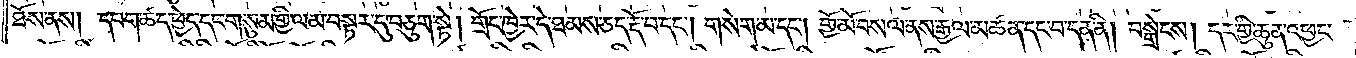ཐོས་ནས། དཔག་ཚད་ཕྱེད་དང་གསུམ་གྱི་ལམ་བསྟར་དུ་བཅུག་སྟེ། གྲོང་ཁྱེར་དེ་ཐམས་ཅད་རྡོ་བ་དང༌། གསེག་མ་དང༌། གྱོ་མོ་བསལ་ནས་རྒྱལ་མཚན་དང་བ་དན་ནི། བསྒྲེངས། དར་གྱི་ཆུན་འཕྱང་
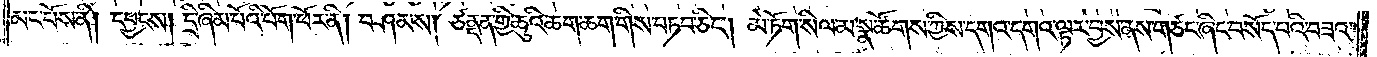མང་པོས་ནི། དཔྱངས། དྲི་ཞིམ་པོའི་པོག་ཕོར་ནི། བཤམས། ཙནྡན་གྱི་ཆུའི་ཆག་ཆག་གིས་བཏབ་ཅིང༌། མེ་ཏོག་སིལ་མ་སྣ་ཚོགས་ཀྱིས་དགའ་དགའ་ལྟར་བྱས་ནས་གཙང་ཞིང་བསོད་པའི་བཟའ་
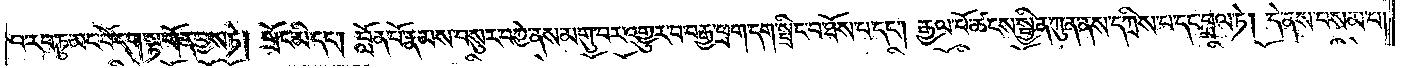བ་རབ་ཏུ་མང་པོ་དག་སྟ་གོན་བྱས་ཏེ། གྲོང་མི་དང༌། བློན་པོ་རྣམས་བསུར་བཀྱེ་ནས་མགུ་བར་འགྱུར་བ་བརྒྱ་ཕྲག་དག་སྤྲིང་བ་ཐོས་པ་དང༌། རྒྱལ་པོ་ཚངས་སྦྱིན་ཀུན་ནས་དཀྲིས་པ་དང་བྲལ་ཏེ། དེ་ནས་བསམ་པ།
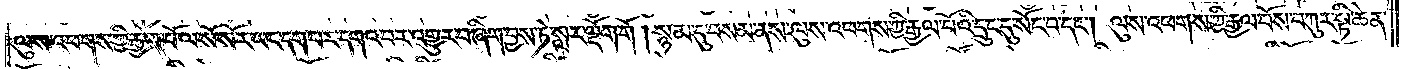ལུས་འཕགས་ཀྱི་རྒྱལ་པོ་ལ་སོ་སོར་ཡང་དག་པར་དགའ་བར་འགྱུར་བ་ཞིག་བྱས་ཏེ་སླར་ལྡོག་གོ །སྙམ་དུ་བསམ་ནས་ལུས་འཕགས་ཀྱི་རྒྱལ་པོའི་དྲུང་དུ་སོང་བ་དང༌། ལུས་འཕགས་ཀྱི་རྒྱལ་པོས་བཀུར་སྟི་ཆེན་
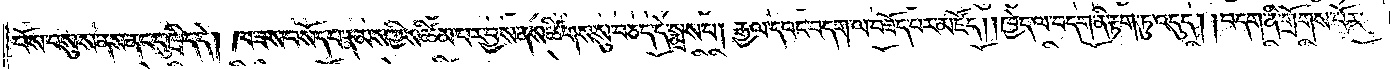པོས་བསུས་ནས་ནང་དུ་ཁྲིད་དེ། ཁ་ཟས་བསོད་པ་རྣམས་ཀྱིས་ཚིམ་པར་བྱས་ནས་ཚིགས་སུ་བཅད་དེ་སྨྲས་པ། རྒྱལ་དབང་བདག་ལ་བཟོད་པར་མཛོད། །ཁྱེད་ལ་བདག་ནི་རྟག་ཏུ་འདུད། །བདག་ནི་གྲོགས་པོར་
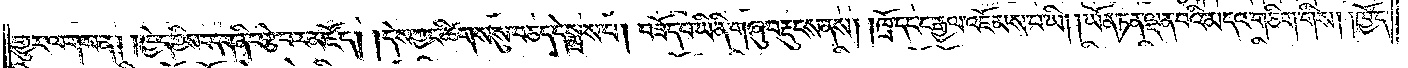གྱུར་ལགས་ན། །ཁྱེད་ཀྱིས་བདག་ནི་བརྩེ་བར་མཛོད། །དེས་ཀྱང་ཚིགས་སུ་བཅད་དེ་སྨྲས་པ། བཟོད་པ་ཡི་ནི་གཞུ་བརྡུངས་ནས། །ཁྲོ་དང་ང་རྒྱལ་འཇོམས་པ་ཡི། །ཡོན་ཏན་ལྡན་པའི་མདའ་གཅིག་གིས། །ཁྱོད་
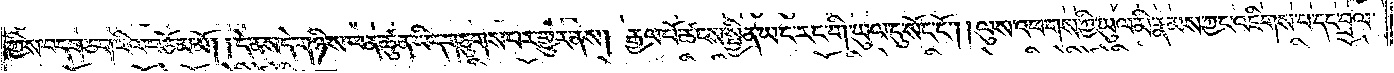ཀྱིས་བདག་ཅག་རིལ་བཅོམ་མོ། །དེ་ནས་དེ་གཉིས་ཕན་ཚུན་ཡིད་གཅུགས་པར་གྱུར་ནས། རྒྱལ་པོ་ཚངས་སྦྱིན་ཡང་རང་གི་ཡུལ་དུ་སོང་ངོ༌། །ལུས་འཕགས་ཀྱི་ཡུལ་མི་རྣམས་ཀྱང་འཇིགས་པ་དང་བྲལ་
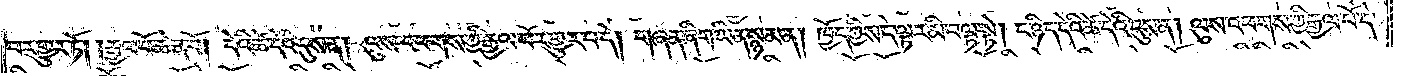བར་གྱུར་ཏོ། །རྒྱལ་པོ་ཆེན་པོ། དེའི་ཚེ་དེའི་དུས་ན། ལུས་འཕགས་ཀྱི་རྒྱལ་པོར་གྱུར་པ་དེ། གཞན་ཞིག་ཡིན་སྙམ་ན། ཁྱོད་ཀྱིས་དེ་ལྟར་མི་བལྟ་སྟེ། ང་ཉིད་དེའི་ཚེ་དེའི་དུས་ན། ལུས་འཕགས་ཀྱི་རྒྱལ་པོ་དེ་
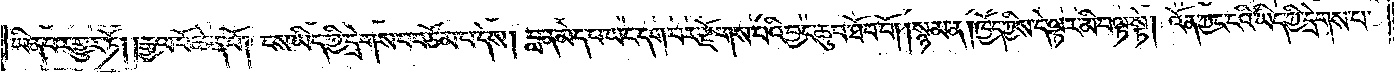ཡིན་པར་གྱུར་ཏོ། །རྒྱལ་པོ་ཆེན་པོ། ངས་ཡིད་ཀྱི་དྲེགས་པ་བཅོམ་པ་དེས། བླ་ན་མེད་པ་ཡང་དག་པར་རྫོགས་པའི་བྱང་ཆུབ་ཐོབ་བོ། །སྙམ་ན། ཁྱོད་ཀྱིས་དེ་ལྟར་མི་བལྟ་སྟེ། འོན་ཀྱང་ངའི་ཡིད་ཀྱི་དྲེགས་པ་
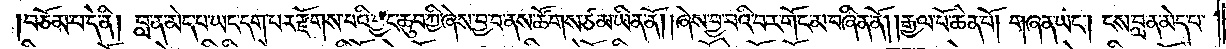བཅོམ་པ་དེ་ནི། བླ་ན་མེད་པ་ཡང་དག་པར་རྫོགས་པའི་བྱང་ཆུབ་ཀྱི་ཞེས་བྱ་བ་ནས་ཚོགས་ཙམ་ཡིན་ནོ། །ཞེས་བྱ་བའི་བར་གོང་མ་བཞིན་ནོ། །རྒྱལ་པོ་ཆེན་པོ། གཞན་ཡང༌། ངས་བླ་ན་མེད་པ་
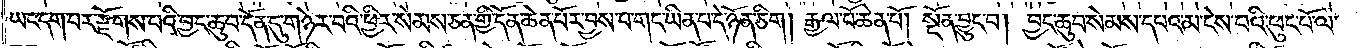ཡང་དག་པར་རྫོགས་པའི་བྱང་ཆུབ་དོན་དུ་གཉེར་བའི་ཕྱིར་སེམས་ཅན་གྱི་དོན་ཆེན་པོར་བྱས་པ་གང་ཡིན་པ་དེ་ཉོན་ཅིག། རྒྱལ་པོ་ཆེན་པོ། སྔོན་བྱུང་བ། བྱང་ཆུབ་སེམས་དཔའ་མ་ངེས་པའི་ཕུང་པོ་ལ་
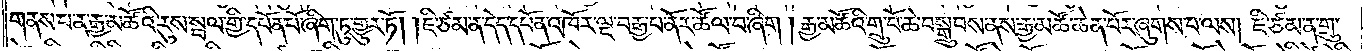གནས་པ་ན་རྒྱ་མཚོའི་རུས་སྦལ་གྱི་དཔོན་པོ་ཞིག་ཏུ་གྱུར་ཏོ། །ཇི་ཙམ་ན་དེད་དཔོན་འཁོར་ལྔ་བརྒྱ་པ་ནོར་ཚོལ་བ་ཞིག །རྒྱ་མཚོའི་གྲུ་བོ་ཆེ་བསྒྲུབས་ནས་རྒྱ་མཚོ་ཆེན་པོར་ཞུགས་པ་ལས། ཇི་ཙམ་ན་གྲུ་
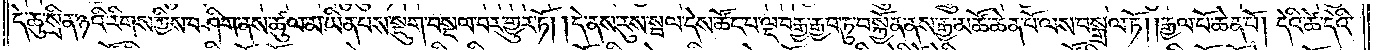དེ་ཆུ་སྲིན་ཉའི་རིགས་ཀྱིས་བཤིག་ནས་ཚུལ་མ་ཡིན་པས་སྡུག་བསྔལ་བར་གྱུར་ཏོ། །དེ་ནས་རུས་སྦལ་དེས་ཚོང་པ་ལྔ་བརྒྱ་རྒྱབ་ཏུ་བསྐྱོན་ནས་རྒྱ་མཚོ་ཆེན་པོ་ལས་བསྒྲལ་ཏོ། །རྒྱལ་པོ་ཆེན་པོ། དེའི་ཚེ་དེའི་
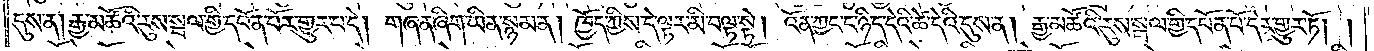དུས་ན། རྒྱ་མཚོའི་རུས་སྦལ་གྱི་དཔོན་པོར་གྱུར་པ་དེ། གཞན་ཞིག་ཡིན་སྙམ་ན། ཁྱོད་ཀྱིས་དེ་ལྟར་མི་བལྟ་སྟེ། འོན་ཀྱང་ང་ཉིད་དེའི་ཚེ་དེའི་དུས་ན། རྒྱ་མཚོའི་རུས་སྦལ་གྱི་དཔོན་པོ་དེར་གྱུར་ཏོ། །
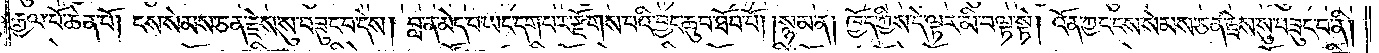རྒྱལ་པོ་ཆེན་པོ། ངས་སེམས་ཅན་རྗེས་སུ་བཟུང་བ་དེས། བླ་ན་མེད་པ་ཡང་དག་པར་རྫོགས་པའི་བྱང་ཆུབ་ཐོབ་བོ། །སྙམ་ན། ཁྱོད་ཀྱིས་དེ་ལྟར་མི་བལྟ་སྟེ། འོན་ཀྱང་ངས་སེམས་ཅན་རྗེས་སུ་བཟུང་བ་ནི།
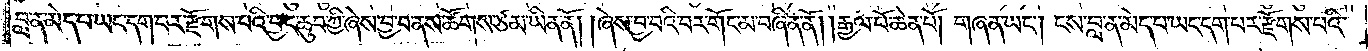བླ་ན་མེད་པ་ཡང་དག་པར་རྫོགས་པའི་བྱང་ཆུབ་ཀྱི་ཞེས་བྱ་བ་ནས་ཚོགས་ཙམ་ཡིན་ནོ། །ཞེས་བྱ་བའི་བར་གོང་མ་བཞིན་ནོ། །རྒྱལ་པོ་ཆེན་པོ། གཞན་ཡང༌། ངས་བླ་ན་མེད་པ་ཡང་དག་པར་རྫོགས་པའི་
